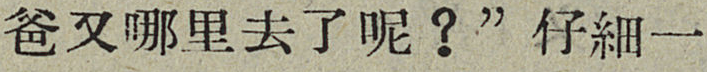爸又哪里去了呢？”仔細一
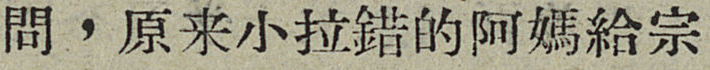問，原来小拉錯的阿媽給宗
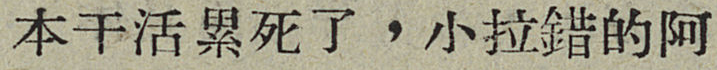本干活累死了，小拉錯的阿
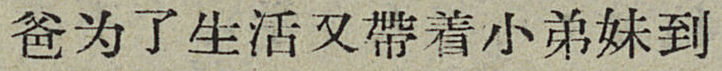爸为了生活又帶着小弟妹到
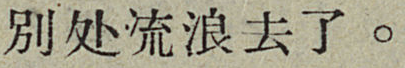別处流浪去了。
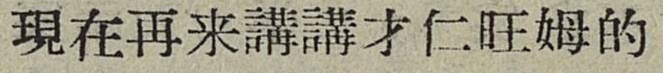現在再来講講才仁旺姆的
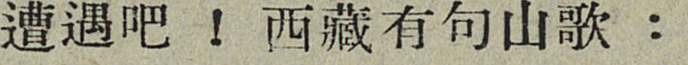遭遇吧！西藏有句山歌：
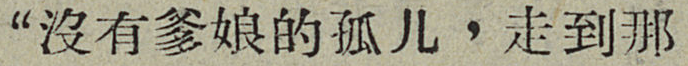“沒有爹娘的孤儿，走到那
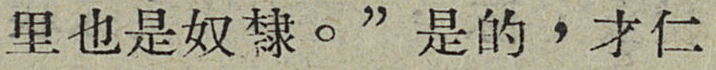里也是奴隸。”是的，才仁
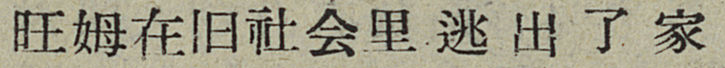旺姆在旧社会里逃出了家
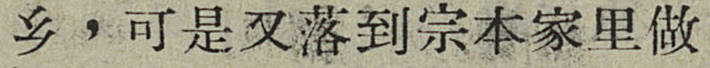乡，可是又落到宗本家里做
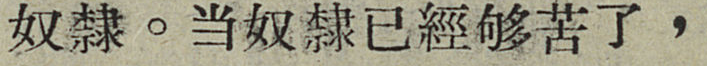奴隸。当奴隸已經够苦了，
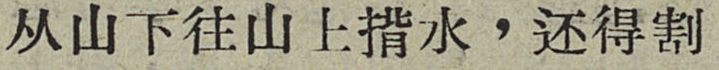从山下往山上揹水，还得割
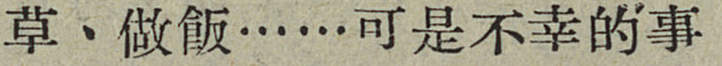草、做飯……可是不幸的事
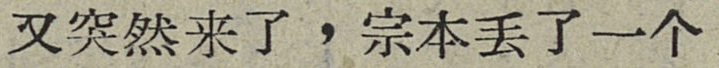又突然来了，宗本丢了一个
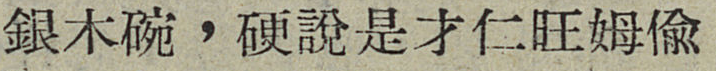銀木碗，硬說是才仁旺姆偷
